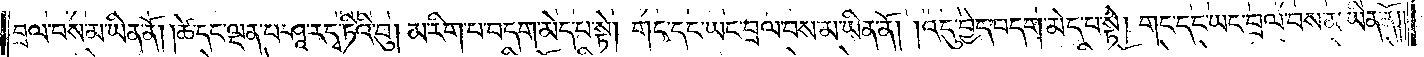བྲལ་བས་མ་ཡིན་ནོ། །ཚེ་དང་ལྡན་པ་ཤཱ་ར་དྭ་ཏིའི་བུ། མ་རིག་པ་བདག་མེད་པ་སྟེ། གང་དང་ཡང་བྲལ་བས་མ་ཡིན་ནོ། །འདུ་བྱེད་བདག་མེད་པ་སྟེ། གང་དང་ཡང་བྲལ་བས་མ་ཡིན་ནོ།
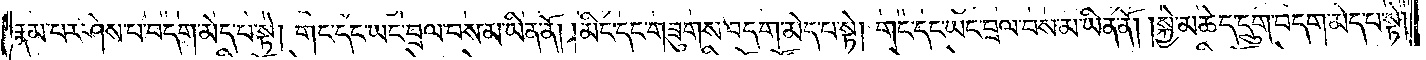རྣམ་པར་ཤེས་པ་བདག་མེད་པ་སྟེ། གང་དང་ཡང་བྲལ་བས་མ་ཡིན་ནོ། །མིང་དང་གཟུགས་བདག་མེད་པ་སྟེ། གང་དང་ཡང་བྲལ་བས་མ་ཡིན་ནོ། སྐྱེ་མཆེད་དྲུག་བདག་མེད་པ་སྟེ།
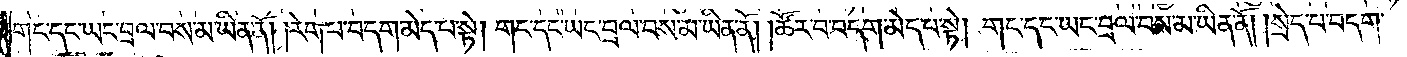གང་དང་ཡང་བྲལ་བས་མ་ཡིན་ནོ། །རེག་པ་བདག་མེད་པ་སྟེ། གང་དང་ཡང་བྲལ་བས་མ་ཡིན་ནོ། །ཚོར་བ་བདག་མེད་པ་སྟེ། གང་དང་ཡང་བྲལ་བས་མ་ཡིན་ནོ། །སྲེད་པ་བདག་
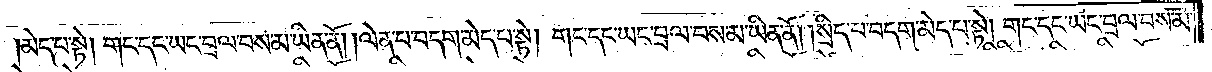མེད་པ་སྟེ། གང་དང་ཡང་བྲལ་བས་མ་ཡིན་ནོ། །ལེན་པ་བདག་མེད་པ་སྟེ། གང་དང་ཡང་བྲལ་བས་མ་ཡིན་ནོ། །སྲིད་པ་བདག་མེད་པ་སྟེ། གང་དང་ཡང་བྲལ་བས་མ་
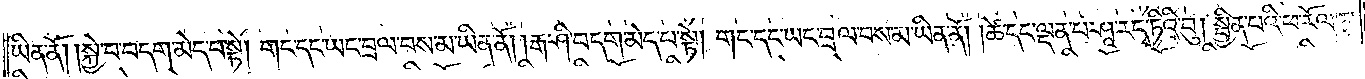ཡིན་ནོ། །སྐྱེ་བ་བདག་མེད་པ་སྟེ། གང་དང་ཡང་བྲལ་བས་མ་ཡིན་ནོ། །རྒ་ཤི་བདག་མེད་པ་སྟེ། གང་དང་ཡང་བྲལ་བས་མ་ཡིན་ནོ། །ཚེ་དང་ལྡན་པ་ཤཱ་ར་དྭ་ཏིའི་བུ། སྦྱིན་པའི་ཕ་རོལ་ཏུ་
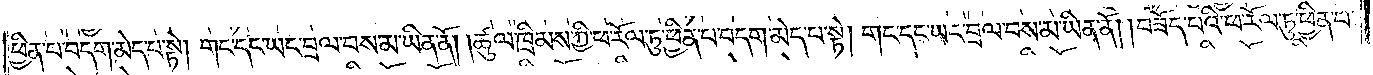ཕྱིན་པ་བདག་མེད་པ་སྟེ། གང་དང་ཡང་བྲལ་བས་མ་ཡིན་ནོ། །ཚུལ་ཁྲིམས་ཀྱི་ཕ་རོལ་ཏུ་ཕྱིན་པ་བདག་མེད་པ་སྟེ། གང་དང་ཡང་བྲལ་བས་མ་ཡིན་ནོ། །བཟོད་པའི་ཕ་རོལ་ཏུ་ཕྱིན་པ་
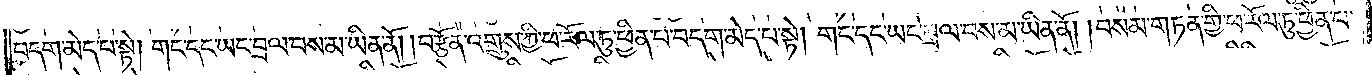བདག་མེད་པ་སྟེ། གང་དང་ཡང་བྲལ་བས་མ་ཡིན་ནོ། །བརྩོན་འགྲུས་ཀྱི་ཕ་རོལ་ཏུ་ཕྱིན་པ་བདག་མེད་པ་སྟེ། གང་དང་ཡང་བྲལ་བས་མ་ཡིན་ནོ། །བསམ་གཏན་གྱི་ཕ་རོལ་ཏུ་ཕྱིན་པ་
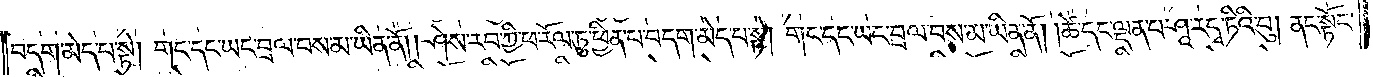བདག་མེད་པ་སྟེ། གང་དང་ཡང་བྲལ་བས་མ་ཡིན་ནོ། །ཤེས་རབ་ཀྱི་ཕ་རོལ་ཏུ་ཕྱིན་པ་བདག་མེད་པ་སྟེ། གང་དང་ཡང་བྲལ་བས་མ་ཡིན་ནོ། །ཚེ་དང་ལྡན་པ་ཤཱ་ར་དྭ་ཏིའི་བུ། ནང་སྟོང་
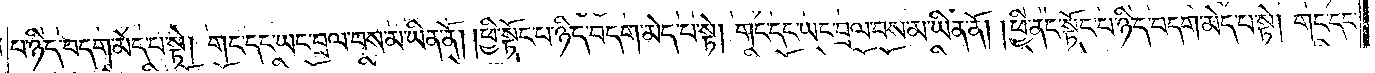པ་ཉིད་བདག་མེད་པ་སྟེ། གང་དང་ཡང་བྲལ་བས་མ་ཡིན་ནོ། །ཕྱི་སྟོང་པ་ཉིད་བདག་མེད་པ་སྟེ། གང་དང་ཡང་བྲལ་བས་མ་ཡིན་ནོ། །ཕྱི་ནང་སྟོང་པ་ཉིད་བདག་མེད་པ་སྟེ། གང་དང་
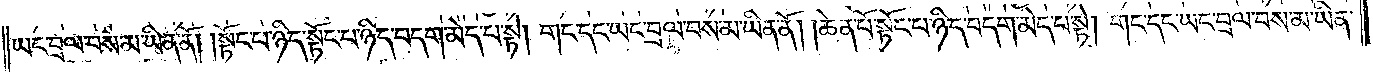ཡང་བྲལ་བས་མ་ཡིན་ནོ། །སྟོང་པ་ཉིད་སྟོང་པ་ཉིད་བདག་མེད་པ་སྟེ། གང་དང་ཡང་བྲལ་བས་མ་ཡིན་ནོ། །ཆེན་པོ་སྟོང་པ་ཉིད་བདག་མེད་པ་སྟེ། གང་དང་ཡང་བྲལ་བས་མ་ཡིན་
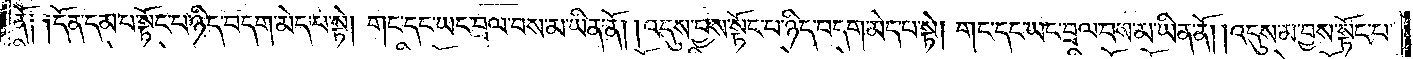ནོ༑ ༑དོན་དམ་པ་སྟོང་པ་ཉིད་བདག་མེད་པ་སྟེ། གང་དང་ཡང་བྲལ་བས་མ་ཡིན་ནོ། །འདུས་བྱས་སྟོང་པ་ཉིད་བདག་མེད་པ་སྟེ། གང་དང་ཡང་བྲལ་བས་མ་ཡིན་ནོ། །འདུས་མ་བྱས་སྟོང་པ་
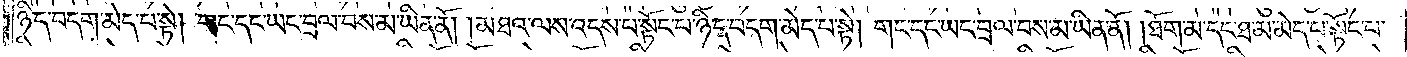ཉིད་བདག་མེད་པ་སྟེ། གང་དང་ཡང་བྲལ་བས་མ་ཡིན་ནོ། །མཐའ་ལས་འདས་པ་སྟོང་པ་ཉིད་བདག་མེད་པ་སྟེ། གང་དང་ཡང་བྲལ་བས་མ་ཡིན་ནོ། །ཐོག་མ་དང་ཐ་མ་མེད་པ་སྟོང་པ་
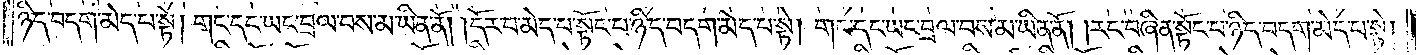ཉིད་བདག་མེད་པ་སྟེ། གང་དང་ཡང་བྲལ་བས་མ་ཡིན་ནོ། །དོར་བ་མེད་པ་སྟོང་པ་ཉིད་བདག་མེད་པ་སྟེ། གང་དང་ཡང་བྲལ་བས་མ་ཡིན་ནོ། །རང་བཞིན་སྟོང་པ་ཉིད་བདག་མེད་པ་སྟེ།
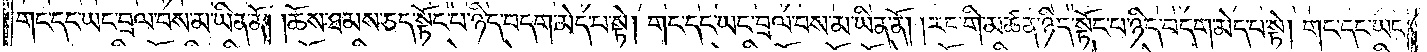གང་དང་ཡང་བྲལ་བས་མ་ཡིན་ནོ། །ཆོས་ཐམས་ཅད་སྟོང་པ་ཉིད་བདག་མེད་པ་སྟེ། གང་དང་ཡང་བྲལ་བས་མ་ཡིན་ནོ། །རང་གི་མཚན་ཉིད་སྟོང་པ་ཉིད་བདག་མེད་པ་སྟེ། གང་དང་ཡང་
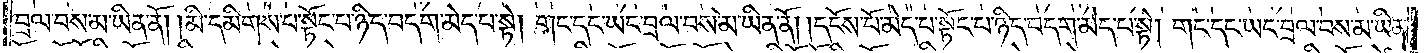བྲལ་བས་མ་ཡིན་ནོ། །མི་དམིགས་པ་སྟོང་པ་ཉིད་བདག་མེད་པ་སྟེ། གང་དང་ཡང་བྲལ་བས་མ་ཡིན་ནོ། །དངོས་པོ་མེད་པ་སྟོང་པ་ཉིད་བདག་མེད་པ་སྟེ། གང་དང་ཡང་བྲལ་བས་མ་ཡིན་
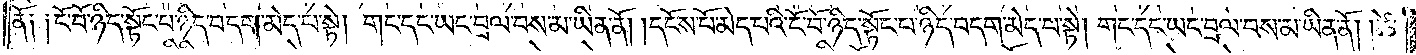ནོ༑ ༑ངོ་བོ་ཉིད་སྟོང་པ་ཉིད་བདག་མེད་པ་སྟེ། གང་དང་ཡང་བྲལ་བས་མ་ཡིན་ནོ། །དངོས་པོ་མེད་པའི་ངོ་བོ་ཉིད་སྟོང་པ་ཉིད་བདག་མེད་པ་སྟེ། གང་དང་ཡང་བྲལ་བས་མ་ཡིན་ནོ། །ཚེ་
